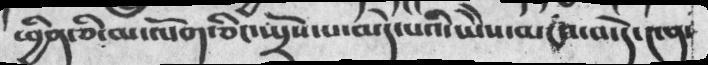ཕྱིན་ཅི་མ་ལོག་ཅིང་སྤྲོས་པ་མེད་པའི་ཡཻས་མངའ་བ་དེ་༤ན་
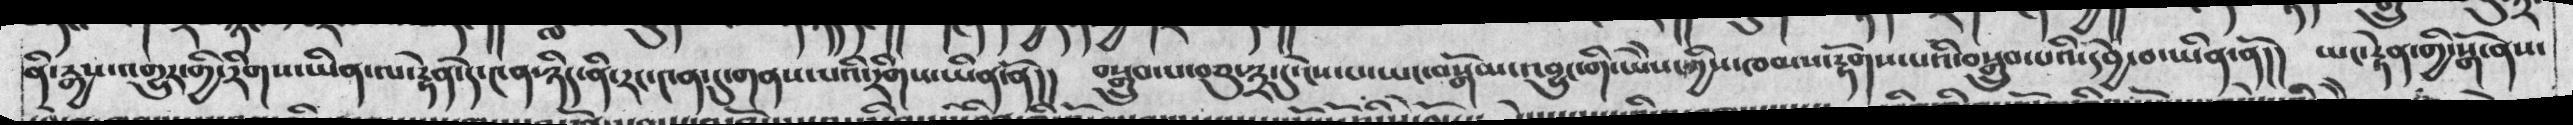ནི་རྒྱས་འགྱུར་གྱི་རིགས་ཡིན་ལ་རྟེན་དེ་༤ན་ཉིད་ནི་རང་༤ན་དུ་གནས་པའི་རིགས་ཡིན་ནོ།། བསྒྲུབ་པ་བཅུ་༣་དུ་ངེས་པ་ཡང་བསྒོམ་འབྱུང་གི་ཡཻས་ཀྱིས་ཁམས་རྟོགས་པའི་བསྒྲུབ་པའི་དབྱེ་བ་ཡིན་ནོ།། ཡང་རྟེན་གྱི་སྒོ་ནས་
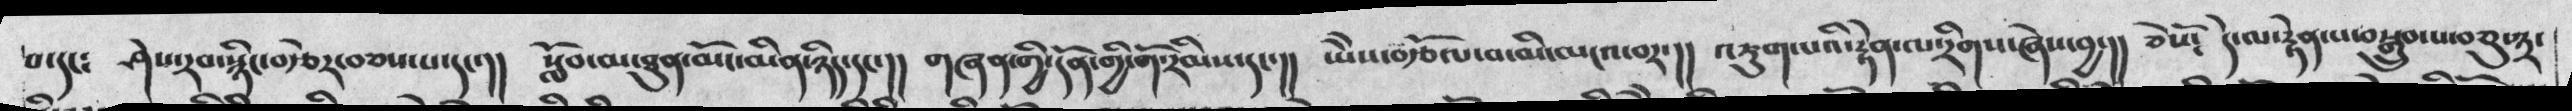པ་དང༴ ཤེས་རབ་སྙིང་བརྩེར་བཅས་པ་དང་།། སློབ་མ་ཐུན་མོང་ཉིད་དང་།། གཞན་གྱི་དོན་གྱི་གོ་རིམས་དང་།། ཡཻས་བརྩོལ་བ་མི་མངའ་བར་།། འཇུག་པའི་རྟེན་ལ་རིགས་ཞེས་བྱ་།། འཇུག་པའི་རྟེན་ལ་རིགས་ཞེས་བྱ་།། ཅེསོ༴ དེ་ལ་རྟེན་པ་བསྒྲུབ་པ་བཅུ་༣་
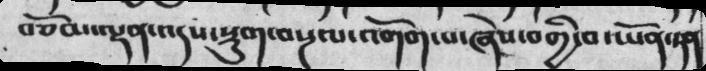བཅོམ་ལྡན་འདས་སྡུག་བསྔལ་འགོག་པ་ཞེས་བགྱི་བ་ཡོན་ཏན
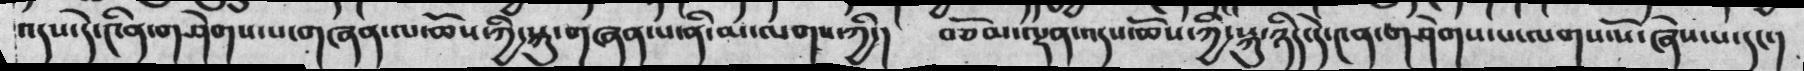འདས་དེ་༤ན་གཤེགས་པ་གཞན་ལ་ཆོས་ཀྱི་གཞན་པ་ནི་མ་ལགས་ཀྱི་།  བཅོམ་ལྡན་འདས་ཆོས་ཀྱི་སྐུ་ཉིད་དེ་༤ན་གཤེགས་པ་ལགས་སོ་ཞེས་པ་དང་།
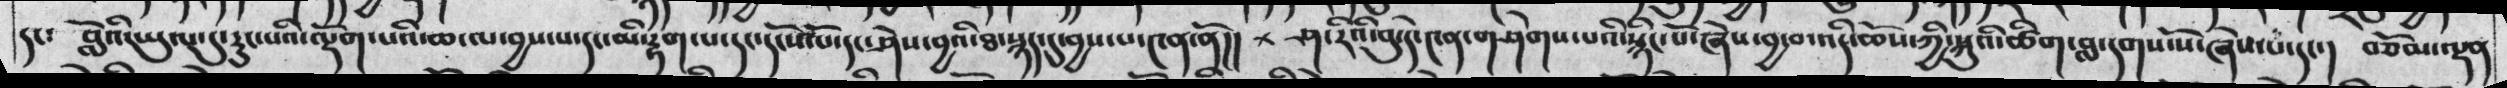དང༴ བློའི་ཡུལ་དུ་རུང་པའི་ལྡོག་པའི་ཆ་ལ་བྱས་པ་དང་མི་རྟག་པ་དང་དངོས་པོ་དང་ཤེས་བྱའི་ཐ་སྙད་དུ་བྱས་པ་༤ན་ནོ།། ྾    ཤ་རིའི་བུ་དེ་༤ན་གཤེགས་པའི་སྙིང་པོ་ཞེས་བྱ་བ་འདི་ཆོས་ཀྱི་སྐུའི་ཚིག་བླ་དགས་སོ་ཞེས་པ་དང་། བཅོམ་ལྡན
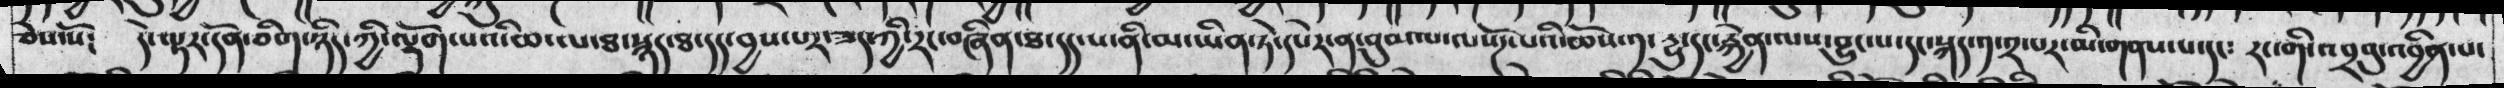ཅེས་སོ༴ དེ་ལྟར་དོན་ཅིག་ཉིད་ཀྱི་ལྡོག་པའི་ཆ་ལ་ཐ་སྙད་ཐ་དད་བྱས་པར་ཟད་ཀྱི་རང་བཞིན་ཐ་དད་པ་ནི་ཡིན་ཏེ་དཔེར་ན་བུམ་པ་ལསོཌ་པའི་ཆོས་༡་རྱུ་དང་རྐྱེན་ལས་བྱུང་པ་དང་སྐད་༡་༢་པར་མི་གནས་པ་དང༴ རང་གི་འབྲབུ་འབྱིན་པ་
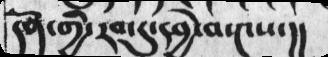དོན་གྱི་རབ་དུ་དབྱེ་བ་༤ས་།།
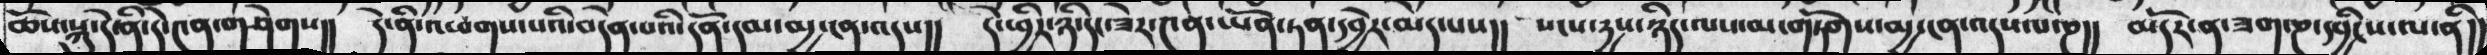ཆོས་སྐུ་དེ་ནི་དེ་༤ན་གཤེགས།། དེ་ནི་འཕགས་པའི་བདེན་པའི་དོན་དམ་མྱ་ངན་འདས།། དེ་ཕྱིར་ཉིད་དང་ཟེར་༤ན་ཡོན་ཏན་དབྱེར་མེད་པས།། སངས་རྱས་ཉིད་ལས་མ་གཏོགས་མྱ་ངན་འདས་པ་ཎ།། མདོར་ན་ཟག་ཎ་དབྱིངས་ལ་ནི།།
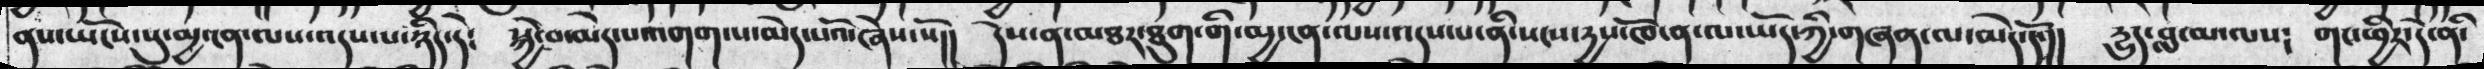ནས་ཡོངས་སུ་མྱ་ངན་ལས་འདས་པ་ཉིད་དེ༴  སྐྱེ་བ་མེདདཔ་འགག་པ་མེད་པའོ་ཞེས་སོ།།  དེས་ན་མཐར་ཐུག་གི་མྱ་ངན་ལས་འདས་པ་ནི་སངས་རྱས་ཁོ་ན་ལ་ཡོད་ཀྱི་གཞན་ལ་མེད་དོ་།།  རྱུད་བླ་མ་ལས༴  གང་ཕྱིར་དེ་ནི་
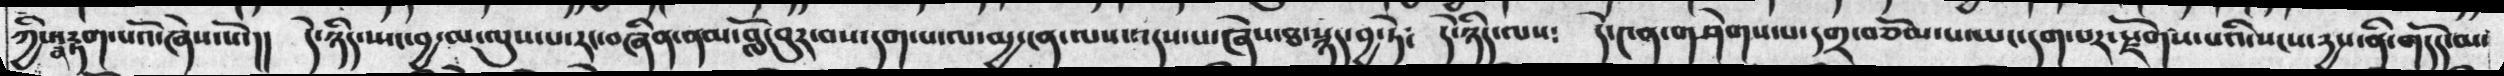ཀྱིས་རྟག་པའོ་ཞེས་སོ་།།  དེ་ཉིད་ཡང་བྱ་མ་ལུས་པ་རང་བཞིན་ནམ་བློ་བུར་བས་དག་པ་ལ་མྱ་ངན་ལས་འདས་པ་ཞེས་ཐ་སྙད་བྱ་ཏེ༴  དེ་ཉིད་ལས༴  དེ་༤ན་གཤེགས་པ་དགྲ་བཅོམ་པ་ཡང་དག་པར་སྫོགས་པའི་སངས་རྱས་ནི་གདོད་མ་
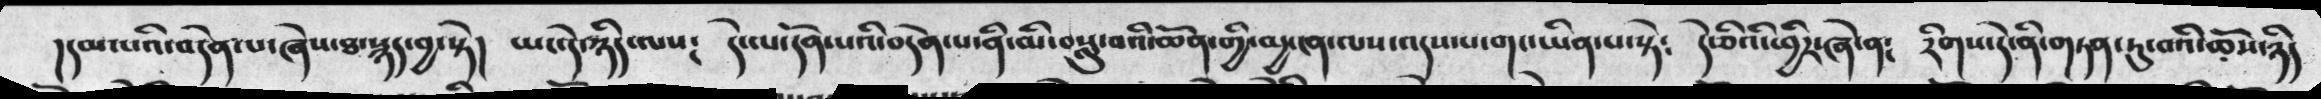།དམ་པའི་བདེན་པ་ཞེས་ཐ་སྙད་བྱ་སྟེ། ཡང་དེ་ཉིད་ལས༴ དེ་ལ་དོན་པའི་བདེན་པ་ནི་མི་བསླུ་བའི་ཆོན་གྱི་ནྱ་ངན་ལས་འདས་པ་གང་ཡིན་པ་སྟེ༴  དེ་ཅིའི་ཕྱིར་ཞེ་ན༴  རིགས་དེ་ནི་གཏན་ཏུ་བའི་ཆོས་ཉིད
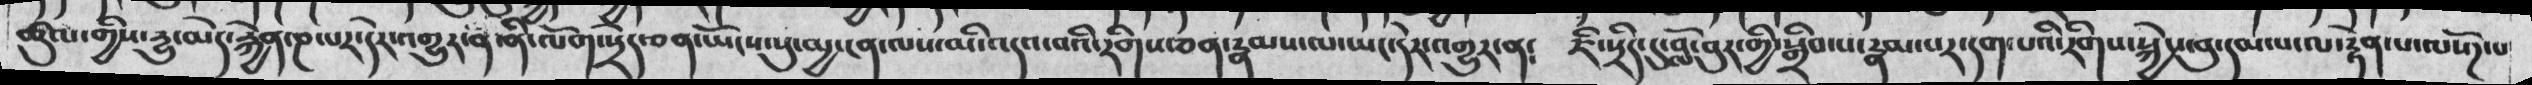ཚུལ་གྱིས་རྱུ་མེད་རྐྱེན་ཎ་པར་དེར་འགྱུར་ན་ནི་ལོག་སྲེད་ཅན་ཡོངས་སུ་མྱ་ངན་ལས་མི་འདའ་བའི་རིགས་ཅན་རྣམས་ལ་ཡང་དེར་འགྱུར་ན༴  ཇི་སྲིད་དུ་བློ་བུར་གྱི་སྒྲིབ་པ་རྣམ་པར་དག་པའི་རིགས་སྐྱེས་བུ་དམ་པ་ལ་རྟེན་པ་ལསོཌ་པ་
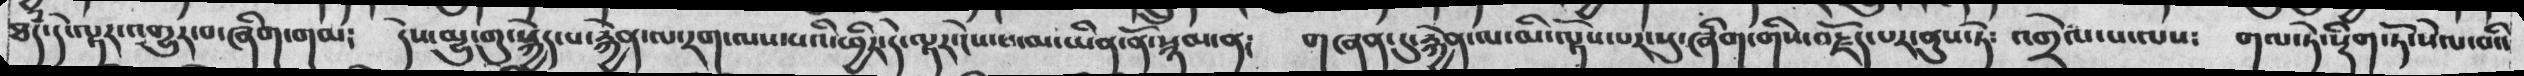ཐཾད་དེ་ལྟར་འགྱུར་བ་ཞིག་གམ༴  དེས་མྱུ་གུ་སྐྱེད་པ་རྐྱེན་ལ་རག་ལས་པའི་ཕྱིར་དེ་ལྟར་ངེས་པ་མ་ཡིན་ནོ་སྙམ་ན༴  གཞན་དུ་རྐྱེན་ལ་མི་ལྟོས་པར་སུ་ཞིག་གིས་བརྗོད་པར་ནུས་ཏེ༴  འགྲེལ་པ་ལས༴  གལ་ཏེ་སྡིག་ཏོ་སེལ་བའི
